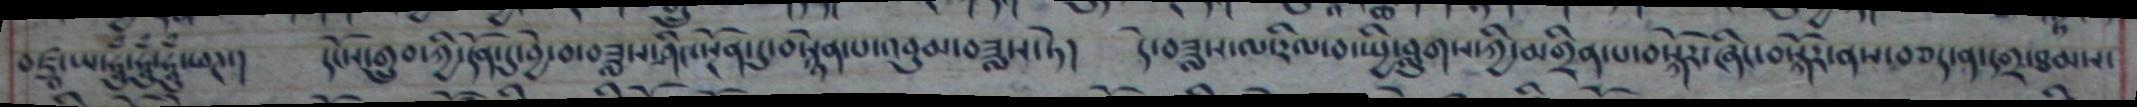བཛྲཱ་ཡ་ཧཱུཾ་ཧཱུཾ་ཧཱུཾ་ཕཌ། དངོས་གྲུབ་ཀྱི་དོན་དུ་བྱེ་བ་བཟླས་ཤིང་སྔོན་དུ་བསྙེན་པ་འབུམ་བཟླས་ཏེ། དེ་བཟླས་ལ་རིལ་བ་སྤྱི་བླུགས་ཀྱི་མགྲིན་པ་བསྐོར་ཞིང་བསྐོར་ནས་བཅད་ན་དགྲ་ཐམས་
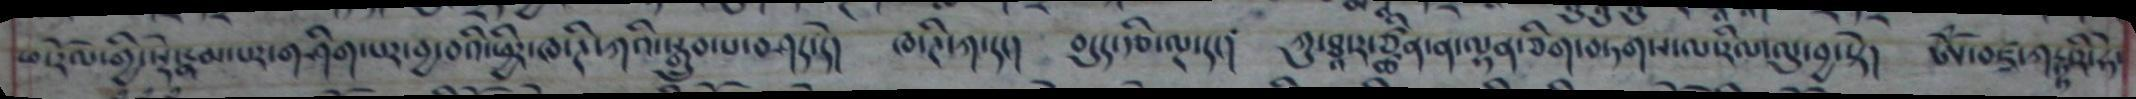ཕ་རོལ་གྱི་སྡེ་རྣམ་པར་གཤིག་པར་བྱ་བའི་ཕྱིར་ཁ་ཊི་ཀའི་སྒྲུབ་པ་བཤད་དེ། ཁ་ཊི་ཀ་དང། བདུད་རྩི་ལྔ་དང། ཀུ་ཐཱ་ར་ཙྪིན་ན་ལྷན་ཅིག་བཏགས་ལ་རིལ་ལུ་བྱ་སྟེ། ཨོཾ་བཛྲ་ཀརྟྟའི་ཧེ་
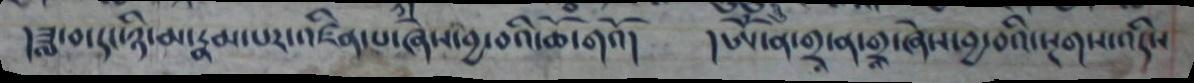།ཟླ་བ་དང་ཉི་མ་རྣམ་པར་འཛིན་པ་ཞེས་བྱ་བའི་ཆོ་གའོ། །ཨོཾ་ན་གྲཱ་ན་གྲཱ་ཞེས་བྱ་བའི་སྔགས་འདིས
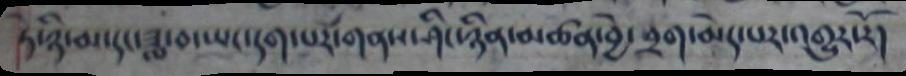ཏེ་ཉི་མ་དང་ཟླ་བ་ཡང་དག་པར་གནས་ཤིང་ཉིན་མཚན་བྱེ་བྲག་མེད་པར་འགྱུར་རོ།
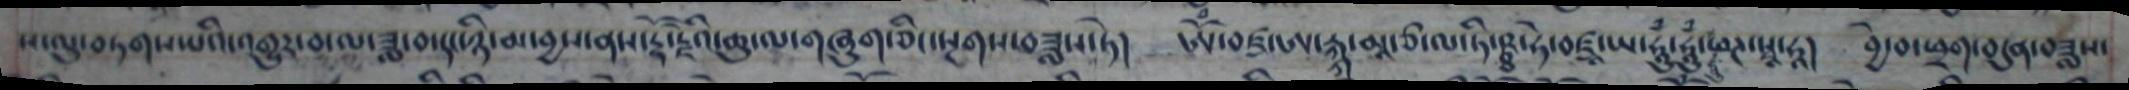ས་ལུ་བཏགས་པའི་འགྱུར་བ་ལ་ཟླ་བ་དང་ཉི་མ་བྱས་ནས་རྡོ་རྗེའི་ཆུ་ལ་གཞུག་ཅིང་སྔགས་བཟླས་ཏེ། ཨོཾ་བཛྲ་ཨ་རྐྐ་མཱ་ཙ་ལ་ཏི་ཥྠ་ཧེ་བཛྲཱ་ཡ་ཧཱུཾ་ཧཱུཾ་ཕཊ་སྭཱ་ཧཱ། བྱེ་བ་ཕྲག་བདུན་བཟླས་
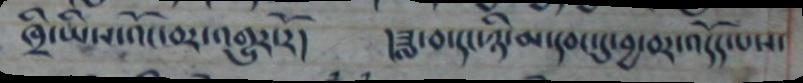ཁྲི་ཡིས་འོང་བར་འགྱུར་རོ། །ཟླ་བ་དང་ཉི་མ་དབང་དུ་བྱ་བར་འདོད་པས་
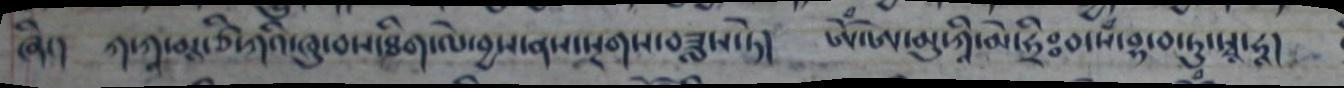ཞིང། ཀ་ཀཱ་མཱ་ཙི་ཀའི་ཁུ་བས་ཐིག་ལེ་བྱས་ནས་སྲགས་བཟླས་ཏེ། ཨོཾ་ཨ་མུ་ཀཱི་མེ་ཧྲིཿ  བ་སཾ་བྷ་བ་ཏུ་སྭཱ་ཧཱ།
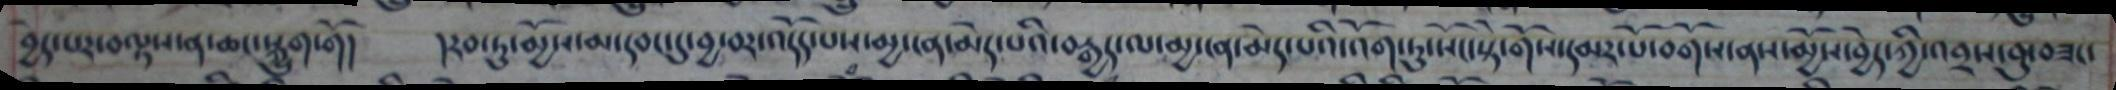བྱེད་པར་བལྟས་ན་ཆང་སྐྱུག་གོ། །རབ་ཏུ་མྱོས་མ་དབང་དུ་བྱ་བར་འདོད་པས་མྱ་ངན་མེད་བརྒྱད་ལ་མྱ་ངན་མེད་པའི་འོག་ཏུ་སོང་སྟེ་གོས་དམར་པོ་བགོས་ནས་མྱོས་བྱེད་ཀྱི་འབྲས་བུ་བཟང་
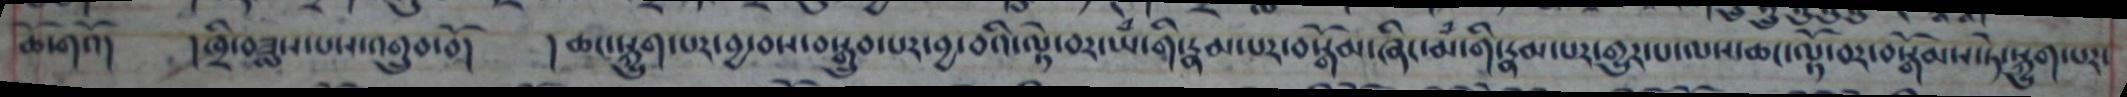ཆོ་གའོ། །ཁྲི་བཟླས་པས་འགྲུབ་བོ། །ཆང་སྐྱུག་པར་བྱ་བས་བསྒྲུབ་པར་བྱ་བའི་ལྟེ་བར་ཡཾ་གི་རྣམ་པར་བསྒོམ་ཞིང་མཾ་གི་རྣམ་པར་གྱུར་པ་ལས་ཆང་ལྟོ་བར་བསྒོམས་ཏེ་སྐྱུག་པར་
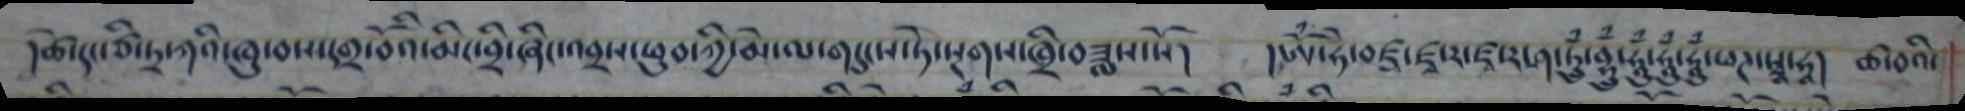།ཚེ་དང་ཙི་ཏྲ་ཀའི་ཁུ་བས་དགྲ་བོའི་མིང་བྲི་ཞིང་འབྲས་བུ་ཕུབ་ཀྱི་མེ་ལ་གདུངས་ཏེ་སྔགས་ཁྲི་བཟླས་སོ། །ཨོཾ་ཧེ་བཛྲ་ཛྭ་ར་ཛྭ་ར་ཤ་ཏྭུཾ་བྷཱུཾ་ཧཱུཾ་ཧཱུཾ་ཧཱུཾ་ཕཊ་སྭཱ་ཧཱ། ཚ་བའི་
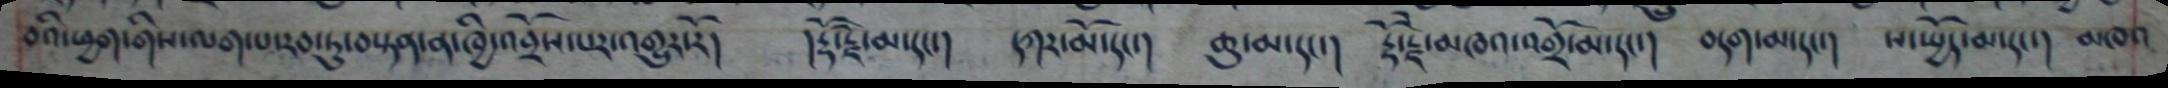བའི་ཕྱག་གིས་ལག་པ་རབ་ཏུ་བསྟན་ན་ཁྱི་འབྲོས་པར་འགྱུར་རོ། །རྡོ་རྗེ་མ་དང་། དཀར་མོ་དང་། ཆུ་མ་དང་། རྡོ་རྗེ་མཁའ་འགྲོ་མ་དང་། བདག་མ་དང་། ས་སྤྱོད་མ་དང་། མཁའ
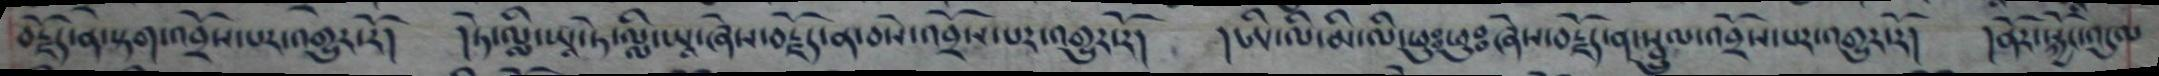བརྗོད་ནི་སྟག་འབྲོས་པར་འགྱུར་རོ། །ཏེ་ལླི་ཡཱ་ཏེ་ལླི་ཡཱ་ཞེས་བརྗོད་ན་བསེ་འབྲོས་པར་འགྱུར་རོ། །ཨི་ལི་མི་ལི་ཕུཿ  ཕུཿ ཞེས་བརྗོད་ན་སྦྲུལ་འབྲོས་པར་འགྱུར་རོ། །ནོར་སྐྱོང་འདུལ
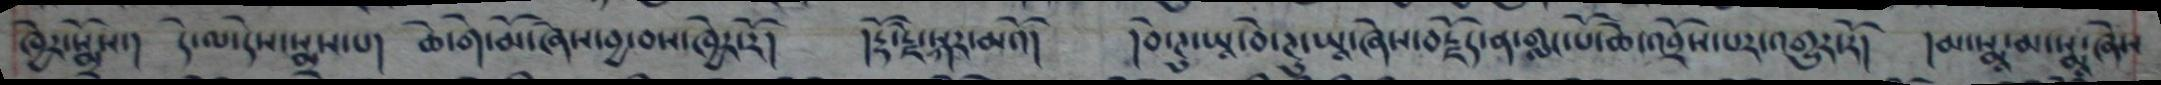ཁྱེར་སྨྲོས་། དེ་ལ་དེས་སྨྲས་པ། ཆེ་གེ་མོ་ཞེས་བྱ་བས་ཁྱེར་རོ། །རྡོ་རྗེ་སྐར་མའོ། །བེ་ཊུ་ཡཱ་བེ་ཊུ་ཡཱ་ཞེས་བརྗོད་ན་གླང་པོ་ཆེ་འབྲོས་པར་འགྱུར་རོ། །མ་སྨཱ་མ་སྨཱ་ཞེས
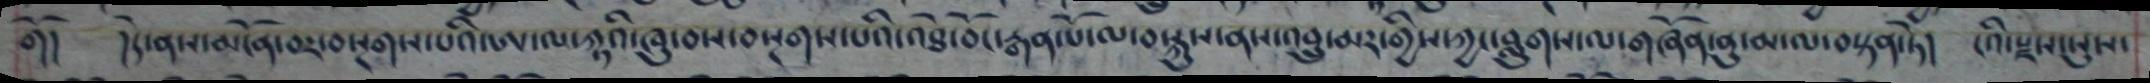གོ། །དེ་ནས་མངོན་བར་བསྔགས་པའི་ཨ་ལ་ཀྟའི་ཁུ་བས་བསྔགས་པའི་འཐེ་བོང་རྒན་པོ་ལ་བསྐུས་ནས་འབྲུ་མར་གྱིས་ཀྱང་བླུགས་ལ་གཞོན་ནུ་མ་ལ་བསྟན་ཏེ། ངའི་སྫས་སུས་
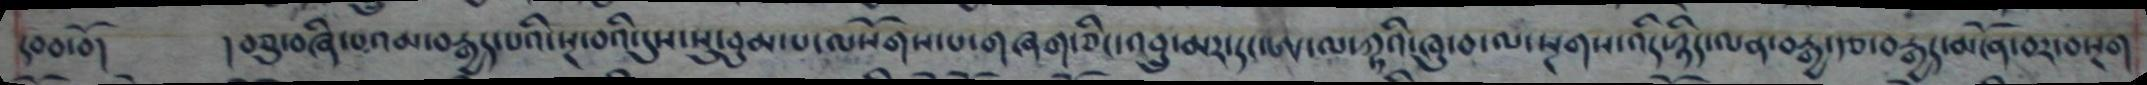དབབ་བོ། །བཅུ་བཞི་པའམ་བརྒྱད་པའི་སྔ་བའི་དུས་སུ་བུམ་པ་ལསོགས་པ་གཞག་ཅིང་འབྲུ་མར་དང་ཨ་ལ་ཀྟའི་ཁུ་བ་སྔགས་འདི་ཉིད་ལན་བརྒྱ་རྩ་བརྒྱད་མངོན་བར་བསྔག
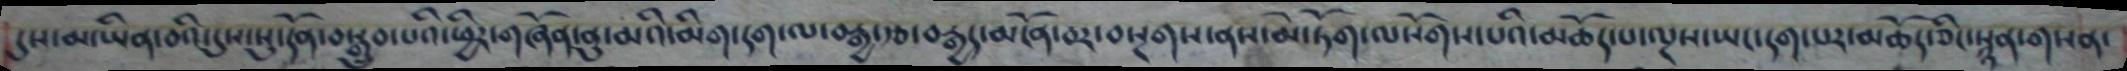དུས་མ་ཡིན་བའི་དུས་སུ་དོན་བསྒྲུབ་པའི་ཕྱིར་གཞོན་ནུ་མའི་མིག་དག་ལ་བརྒྱ་རྩ་བརྒྱད་མངོན་བར་སྔགས་ནས་མེ་ཏོག་ལསོགས་པའི་མཆོད་པ་ལྔས་ཡང་དག་པར་མཆོད་ཅིང་སྙན་གསན་
